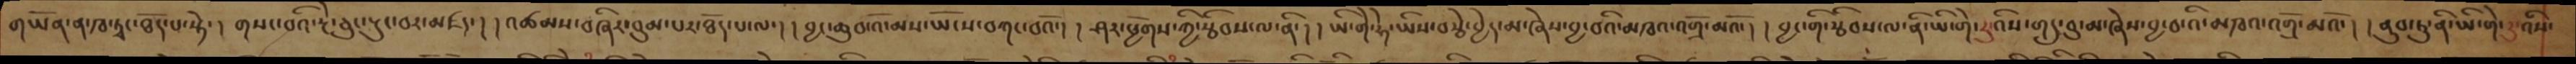གཡོན་ན་ཁ་ཏྭང་ཐོད་པ་སྟེ་ ། གསང་བའི་རྔེ་ཅུང་རྡུང་བར་མཛད་། །འཚམས་བཞིར་བུམ་པར་ཐོད་པ་ལ་། །བྱང་ཆུབ་འོ་མས་ཡོངས་བཀང་བའོ་། །ཤར་ཕྱོགས་ཀྱི་རྩིབས་ལ་ནི་། །ཡི་གེ་ཧེ་ཡིས་བརྩེ་བྱེད་མ་ཞེས་བྱ་བའི་མཁའ་འགྲོ་མའོ་། །བྱང་གི་རྩིབས་ལ་ཡི་གེ་རུ་འིས་གདུ་བུ་མ་ཞེས་བྱ་བ་འི་མཁའ་འགྲོ་མའོ་། །ནུབ་ཏུ་ནི་ཡི་གེ་དུ་འིས་
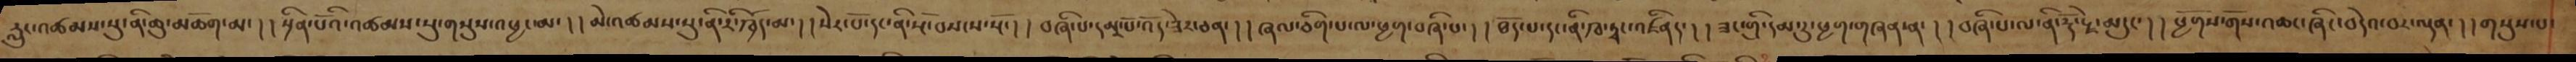རླུང་འཚམས་སུ་ནི་ཆུ་མཆོག་མ་། །སྲིན་པོའི་འཚམས་སུ་གསུས་འཕྱང་མ་། །མེ་འཚམས་སུ་ནི་རི་ཁྲོད་མ་། །སེར་པོ་དང་ནི་སྔོ་བསངས་སྔོ་། བཞི་པ་དམར་པོ་འོད་ཟེར་ཅན་། །ཞལ་ཅིག་པ་ལ་ཕྱག་བཞི་པ་། །ཐོད་པ་དང་ནི་ཁ་ཏྭང་འཛིནད་། །ཟང་གྲི་དམ་རུ་ཕྱག་གཞན་ན་། །བཞི་པ་ལ་ནི་རྡོ་རྗེ་གདུང་། །ཕྱོགས་གོས་འཆང་ཞིང་བདེའ་བར་ལྡན་། །གསུས་པ་
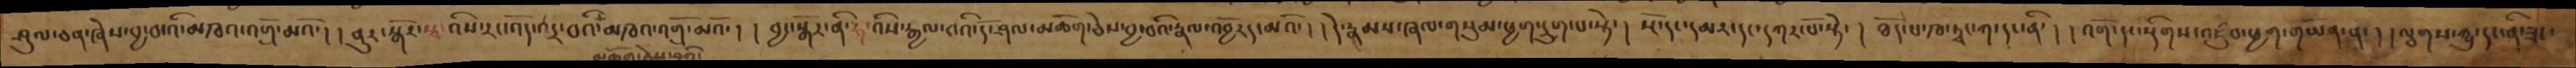ཤུལ་ཅན་ཞེས་བྱ་བ་འི་མཁའ་འགྲོ་མའོ་། །ནུར་སྒོར་སྭ་འིས་རང་འོད་འདྲ་བའི་མཁའ་འགྲོ་མའོ་། །བྱང་སྒོར་ནི་ཧ་འིས་རྒྱལ་བའི་དོ་ཤལ་མཆོག་ཅེས་བྱ་བའི་རྣལ་འབྱོརད་མའོ་། །དེ་རྣམས་ཞལ་གསུམ་ཕྱག་དྲུག་པ་སྟེ་། སྔོ་དང་དམར་དང་དཀར་པོ་སྟེ་། ཐོད་པ་ཁ་ཏྭང་ཀ་དང་ནི་། །འོག་དང་སྡིགས་འཛུབ་ཕྱག་གཡོན་ན་། །ལྕགས་ཀྱུ་དང་ནི་ཟང་
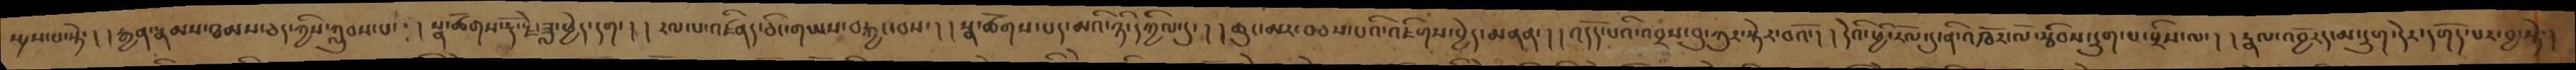སྤྲས་པ་སྟེ་། །རྒྱན་རྣམས་ཐམས་ཅད་ཀྱིས་ཀླུབས་པ་། །སྣ་ཚོགས་རྡོ་རྗེ་ཟླ་ཕྱེད་དག་། །རལ་པ་འཛིན་ཅིང་གཡས་བརྐྱང་བས་། །སྣ་ཚོགས་པད་མའི་ཉི་དཀྱིལ་དུ་། །ཆུང་མར་བཅས་པའི་འཇིགས་བྱེད་མནན་། །འདོད་པའི་འབྲས་བུ་ཀུར་སྟེར་བའོ་། །དེའི་ཕྱི་རོལ་དུ་ནི་འཁོར་ལོ་རྩིབས་དྲུག་པ་བྲིས་ལ་། །རྣལ་འབྱོརད་མ་དྲུག་དེར་དགོད་པར་བྱ་སྟེ་།
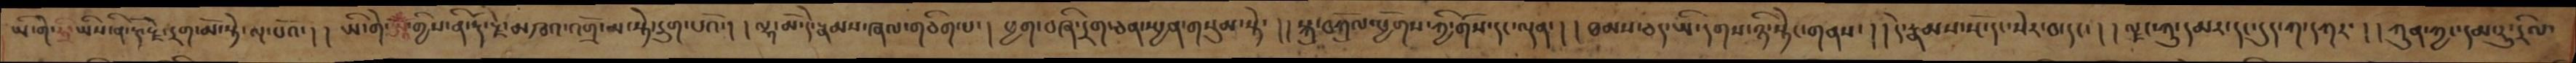ཡི་གེ་ཧྲི་ཡིས་ནི་རྡོ་རྗེ་དྲག་མོ་སྟེ་ལྔ་པའོ་། །ཡི་གེ་ཨཱ་ོྃགྱིས་ནི་རྡོ་རྗེ་མཁའ་འགྲོ་མ་སྟེ་དྲུག་པའོ་། །ལྷ་མོ་དེ་རྣམས་ཞལ་གཅིག་པ་། །ཕྱག་བཞི་དྲག་ཅན་སྤྱན་གསུམ་སྟེ་། །སྐུ་བཀྲོལ་ཕྱོགས་ཀྱི་གོས་དང་ལྡན་། །ཐམས་ཅད་ཡི་དགས་ཉི་སྟེར་གནས་། །དེ་རྣམས་སྔོ་དང་སེར་བ་དང། །ལྗང་ཀུ་དམར་དང་དུད་ཀ་དཀར་། །ཀུན་ཀྱང་དམ་རུ་དྲིལ
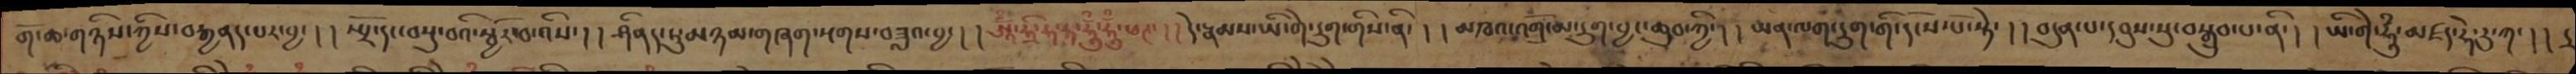གོ་ཆ་གཉིས་ཀྱིས་བརྒྱནད་པར་བྱ་། །སྤྲོ་དང་བསྡུ་བའི་སྦྱོར་བ་འིས་། །ཤིནད་ཏུ་མཉམ་གཞག་སྔགས་བཟླའ་བྱ་། །ཨཱོྃ་ཧྲི་ཧ་ཧ་ཧཱུྃ་ཧཱུྃ་ཕཊ་། །དེ་རྣམས་ཡི་གེ་དྲུག་གིས་ནི་། །མཁའ་འགྲོ་མ་དྲུག་བྱང་ཆུབ་ཀྱི་། །ཡན་ལག་དྲུག་གི་དངོས་པོ་སྟེ་། །བདུན་པ་དབུས་སུ་བསྒྲུབ་པ་ནི་། །ཡི་གེ་ཧཱུྃ་མཛད་ཧེ་རུ་ཀ་། །
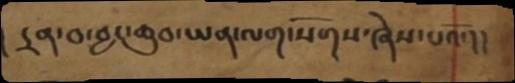། དྲན་བ་བྱང་ཆུབ་ཡན་ལག་སོགས་ཞེས་པའོ་།
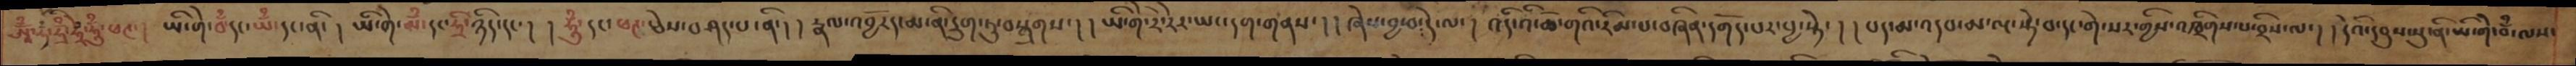ཨཱོྃ་ཧྃ་ཧྲྃ་ཧྲེྃ་ཧཱུྃ་ཕཊ་། ཡི་གེ་བྃ་དང་ཡྃ་དང་ནི་། ཡི་གེ་མྃ་དང་ཧྲི་ཉིད་དང་། །ཧཱུྃ་དང་ཕཊ་ཅེས་བཤད་པ་ནི་། །རྣལ་འབྱོརད་མ་ནི་དྲུག་ཏུ་བསྒྲགས་། །ཡི་གེ་རེ་རེར་ཡང་དག་གནས་། །ཞེས་བྱ་བ་དེ་ལ་། །འདི་འི་ཆོ་གའི་རིམ་པ་བཞིན་དགོད་པར་བྱ་སྟེ་། །པད་མ་འདབ་མ་ལྔ་སྟེ་བ་དང་གེ་སར་གྱིས་འཁྲིགས་པ་བྲིས་ལ་། །དེའི་དབུས་སུ་ནི་ཡི་གེ་བྃ་ལས་
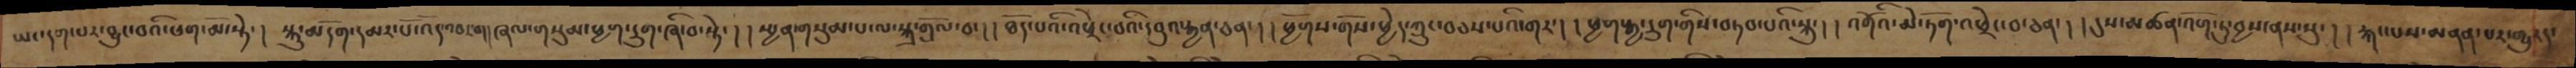ཡང་དག་པར་བྱུང་བའི་ཕག་མོ་སྟེ་། སྐུ་མདོག་དམར་པོ་འོད་འབར་བ།།ཞལ་གསུམ་ཕྱག་དྲུག་ཞི་བ་སྟེ་། །སྤྱན་གསུམ་པ་ལ་སྐྲ་གྲོལ་བ་། །ཐོད་པའི་འཕྲེང་བའི་དབུའ་རྒྱན་ཅན་། །ཕྱོགས་གོས་ཕྱེད་ཀྲུང་བཅས་པའི་གར་། །ཕྱག་རྒྱ་དྲུག་གིས་བཏབ་པའི་སྐུ་། །འགོའི་མེ་ཏོག་འཕྲེང་བ་ཅན་། །དུས་མཚན་འོག་ཏུ་བྱས་ནས་སུ་། །རྐང་པས་མནན་པར་གྱུརད་
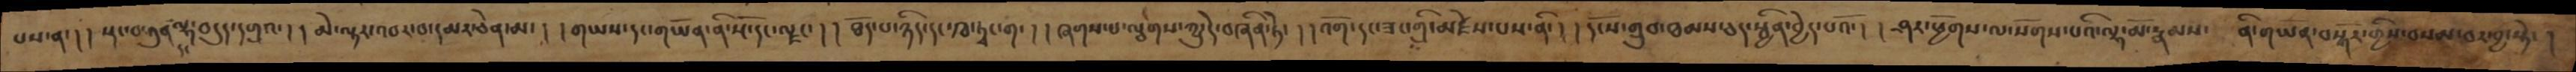པས་ན་། །སྡང་བ་ཀུན་དང་ལྷ་བདུད་དགྲའ་། །མེ་ལྟར་འབར་བ་དམར་ཅེན་མ་། །གཡས་དང་གཡོན་ནི་སྔོ་དང་ལྗང་།།ཐོད་པ་ཉིད་དང་ཁ་ཏྭང་ག་། །ཞགས་པ་ལྕགས་ཀྱུ་དེ་བཞིན་ཏེ་། །འགོ་དང་ཟང་གི་མཛེས་པས་ནི་། །དངོས་གྲུབ་ཐམས་ཅད་སྦྱིན་བྱེད་པའོ་། །ཤར་ཕྱོགས་ལ་སོགས་པའི་ལྷ་མོ་རྣམས་ ནི་གཡོན་བསྐོར་གྱིས་བསམ་པར་བྱ་སྟེ་།
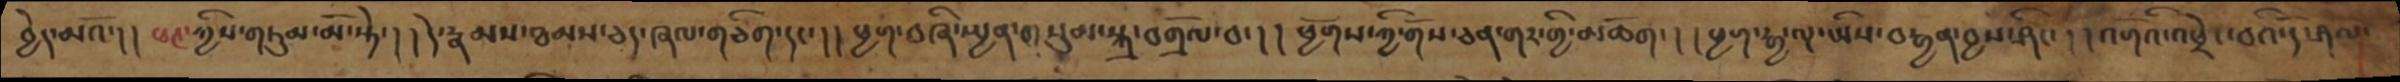བྱེད་མའོ་། །ཕཊ་ཀྱིས་གཏུམ་མོ་སྟེ་། །དེ་རྣམས་ཐམས་ཅད་ཞལ་གཅིག་དང་།། ཕྱག་བཞི་སྤྱན་གསུམ་སྐྲ་བགྲོལ་བ་། །ཕྱོགས་ཀྱི་གོས་ཅན་གར་གྱི་མཆོག་། །ཕྱག་རྒྱ་ལྔ་ཡིས་བརྒྱན་བྱས་ཤིང་། །འགའ་འཕྲེང་བའི་དོ་ཤལ་
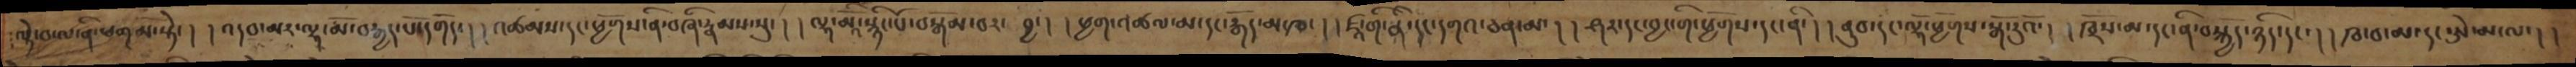ལྟེ་བ་ལ་ནི་ཕག་མ་སྟེ་། །འདབ་མར་ལྷ་མོ་བརྒྱད་པོ་དགོད་། །འཚམས་དང་ཕྱོགས་ནི་བཞི་རྣམས་སུ་། །ལྷ་མོའི་སྙིང་པོ་བསྒོམ་པར་བྱ་། །ཕྱག་འཚལ་མ་དང་རྒོད་མ་ཁ་། །ཛཱ་གི་ནི་དང་དགའ་ཅན་མ་། །ཤར་དང་བྱང་གི་ཕྱོགས་དང་ནི་། །ནུབ་དང་ལྷོ་ཕྱོགས་སྒོ་རུའོ་། །ཁྲོས་མ་དང་ནི་བསྐྱོད་ཉིད་དང་། །ཁ་བ་མ་དང་ཨེ་མ་ལ་། །
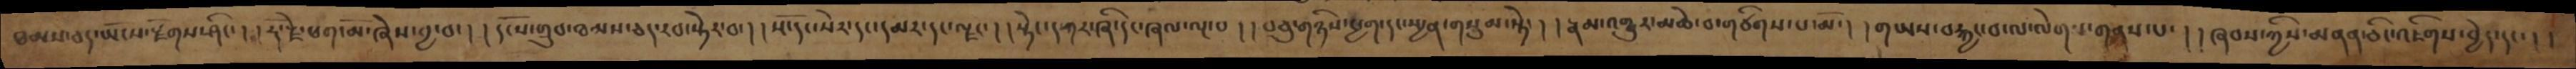ཐམས་ཅད་ཡོངས་རྫོགས་ཤིང་། །རྡོ་རྗེ་ཕག་མོ་ཞེས་བྱ་བ་། །དངོས་གྲུབ་ཐམས་ཅད་རབ་སྟེར་བ་། །སྔོ་དང་སེར་དང་དམར་དང་ལྗང་། །སྟེང་དཀར་ཞི་དང་ཞལ་ལྔ་བ། །བཅུ་གཉིས་ཕྱག་དང་སྤྱན་གསུམ་སྟེ་། །རྣམ་འགྱུར་མཆེ་བ་གཙིགས་པ་མོ་། །གཡས་བརྐྱང་བ་ལ་ལེགས་གནས་པ་། །ཞབས་ཀྱིས་མནན་ཅིང་འཇིགས་བྱེད་དང་། །
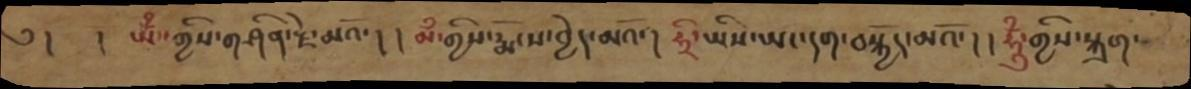༅།  ། ཨོཾ་གྱིས་གཤིན་རྗེ་མའོ་། །མྃ་གྱིས་རྨོངས་བྱེད་མའོ་། ཧྲི་ཡིས་ཡང་དག་བསྐྱོད་མའོ་། །ཧཱུྃ་གྱིས་སྐྲག་
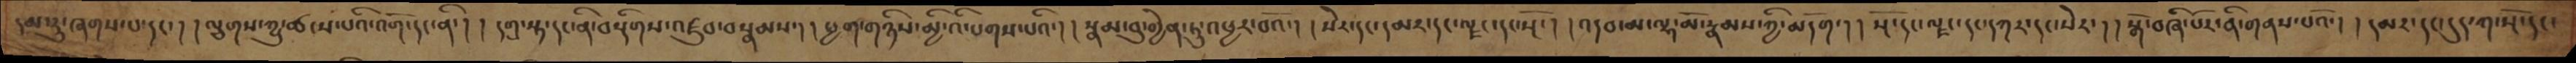དམ་རུ་ཞགས་པ་དང་། །ལྕགས་ཀྱུ་ཚངས་པའི་འོག་དང་ནི་། །དགྲ་སྟ་དང་ནི་བསྡིགས་འཛུབ་བསྣམས་། །ཕྱག་གཉིས་མྱི་འི་པགས་པའི་། །སྣམ་བུ་གྱེན་ཏུ་འཕྱར་བའོ་། །སེར་དང་དམར་དང་ལྗང་དང་སྔོ་། །འདབ་མ་ལྷ་མོ་རྣམས་ཀྱི་མདོག་། །སྔོ་དང་ལྗང་དང་དཀར་དང་སེར་། །སྒོ་བཞི་པོར་ནི་གནས་པའོ་། །དམར་དང་དུད་ཀ་སྔོ་དང་
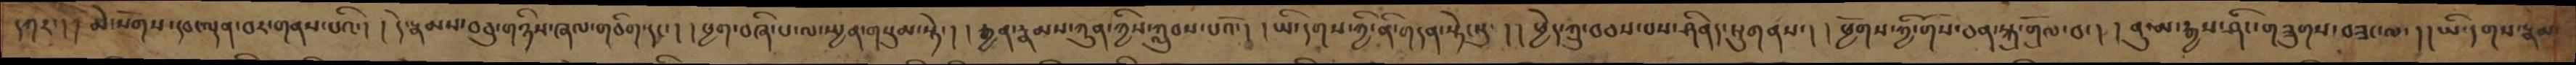དཀར་། །ཨེ་སོགས་དབང་ལྡན་བར་གནས་པའི་། །དེ་རྣམས་བཅུ་གཉིས་ཞལ་གཅིག་དང་། །ཕྱག་བཞི་པ་ལ་སྤྱན་གསུམ་སྟེ་། །རྒྱན་རྣམས་ཀུན་ཀྱིས་ཀླུབས་པའོ་། །ཡི་དགས་ཀྱི་ནི་གདན་སྟེང་སུ་ ། །ཕྱེད་ཀྲུ་བཅས་པས་ཤིནད་ཏུ་གནས་། །ཕྱོགས་ཀྱི་གོས་ཅན་སྐྲ་གྲོལ་བ་། །ནུ་མ་རྒྱས་ཤིང་གཟུགས་བཟང་ལ་ །། ཡི་དགས་རྣམ་
